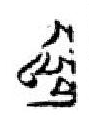ང་དྲུག་
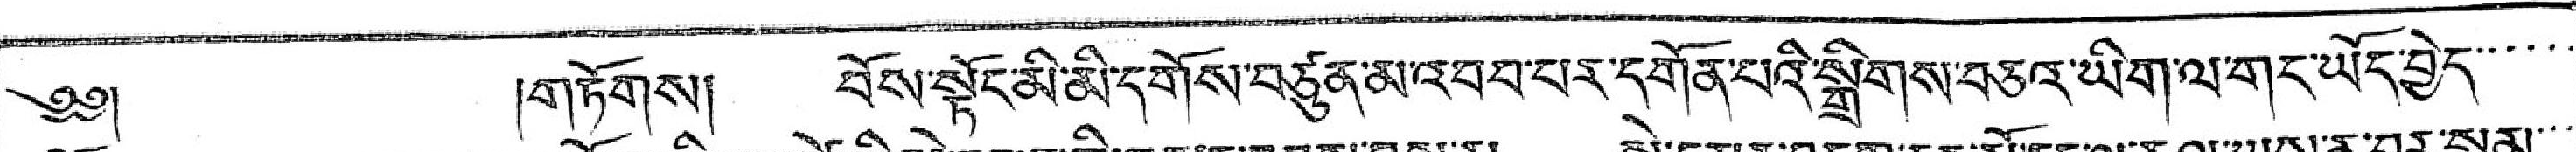༄༅།  །གཏོགས། བོས་སྟོང་མི་མི་དགོས་བཙུན་མ་འབབ་པར་དགོན་པའི་སྒྲིགས་བཅའ་ཡིག་ལ་གང་ཡོད་བྱེད་་་་་་
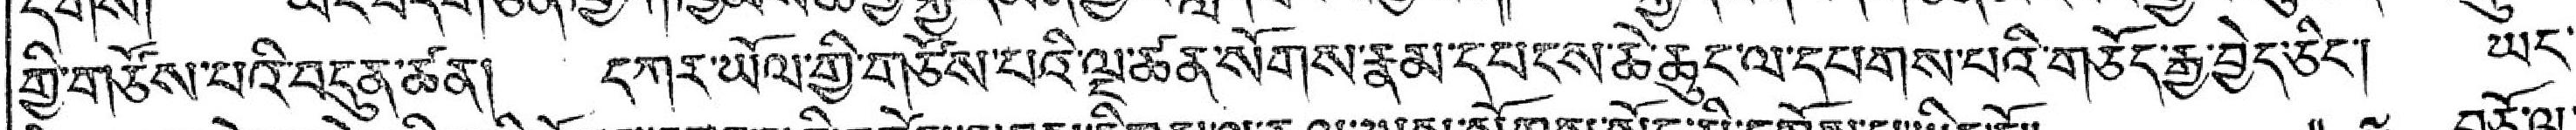གྱི་གཙོས་པའི་བདུན་ཚན། དཀར་ཡོལ་གྱི་གཙོས་པའི་ལྔ་ཚན་སོགས་རྣམ་དཔངས་ཆེ་ཆུང་ལ་དཔགས་པའི་གཅོད་རྒྱ་བྱེད་ཅིང་། ཡང་་
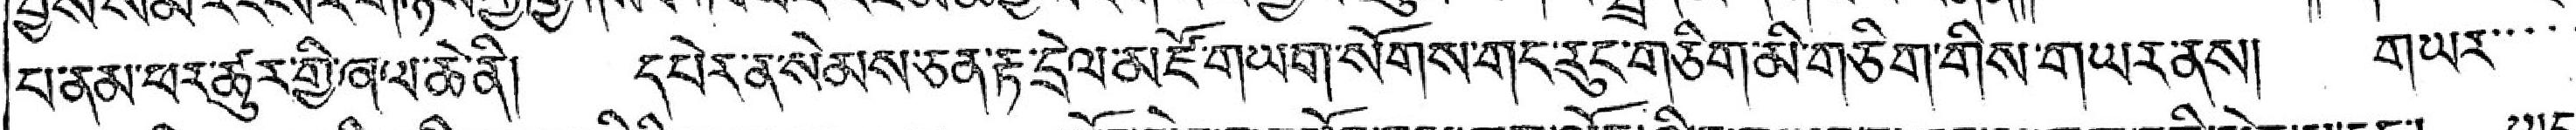པ་ནམ་ཕར་ཚུར་གྱི་ཞལ་ཆེ་ནི། དཔེར་ན་སེམས་ཅན་རྟ་དྲེལ་མཛོ་གཡག་སོགས་གང་རུང་གཅིག་མི་གཅིག་གིས་གཡར་ནས། གཡར་་་་་
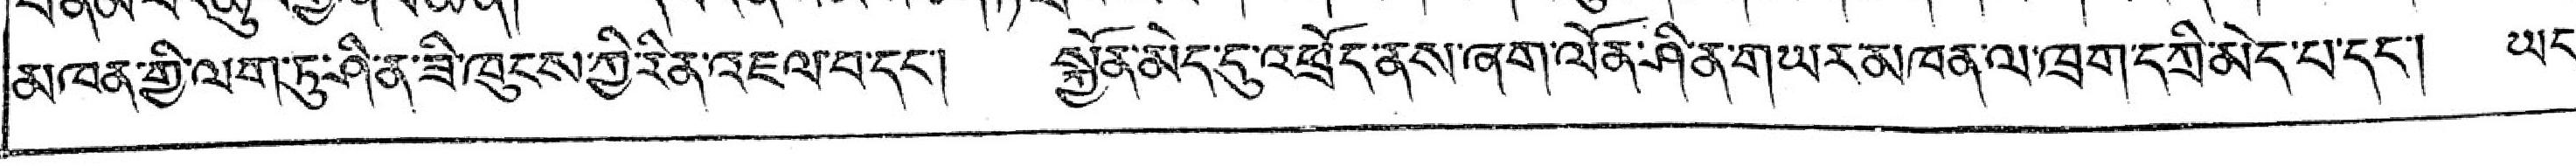མཁན་གྱི་ལག་ཏུ་ཤི་ན་ཟི་ཁུངས་ཀྱི་རིན་འཇལ་བ་དང་། སྐྱོན་མེད་དུ་འཕྲོད་ནས་ཞག་ལོན་ཤིན་གཡར་མཁན་ལ་ཁྲག་དཀྲི་མེད་པ་དང་། ཡང་
